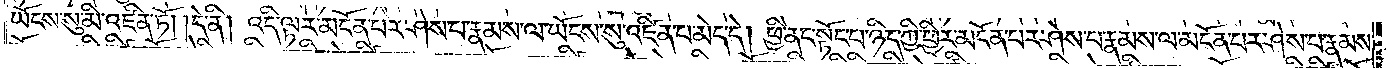ཡོངས་སུ་མི་འཛིན་ཏོ། །དེ་ནི། འདི་ལྟར་མངོན་པར་ཤེས་པ་རྣམས་ལ་ཡོངས་སུ་འཛིན་པ་མེད་དེ། ཕྱི་ནང་སྟོང་པ་ཉིད་ཀྱི་ཕྱིར་མངོན་པར་ཤེས་པ་རྣམས་ལ་མངོན་པར་ཤེས་པ་རྣམས་
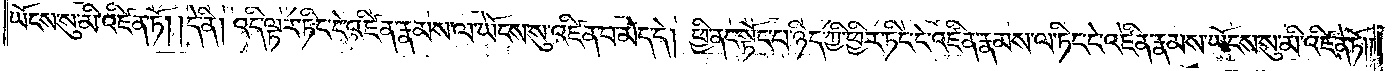ཡོངས་སུ་མི་འཛིན་ཏོ། །དེ་ནི། འདི་ལྟར་ཏིང་ངེ་འཛིན་རྣམས་ལ་ཡོངས་སུ་འཛིན་པ་མེད་དེ། ཕྱི་ནང་སྟོང་པ་ཉིད་ཀྱི་ཕྱིར་ཏིང་ངེ་འཛིན་རྣམས་ལ་ཏིང་ངེ་འཛིན་རྣམས་ཡོངས་སུ་མི་འཛིན་ཏོ༎
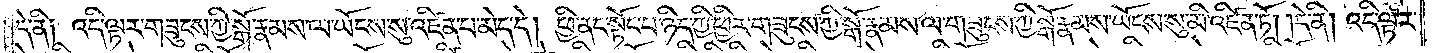དེ་ནི༑ འདི་ལྟར་གཟུངས་ཀྱི་སྒོ་རྣམས་ལ་ཡོངས་སུ་འཛིན་པ་མེད་དེ། ཕྱི་ནང་སྟོང་པ་ཉིད་ཀྱི་ཕྱིར་གཟུངས་ཀྱི་སྒོ་རྣམས་ལ་གཟུངས་ཀྱི་སྒོ་རྣམས་ཡོངས་སུ་མི་འཛིན་ཏོ། །དེ་ནི། འདི་ལྟར་
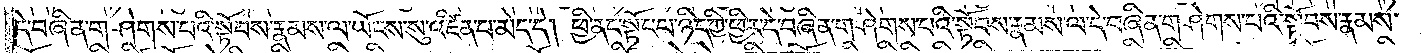དེ་བཞིན་གཤེགས་པའི་སྟོབས་རྣམས་ལ་ཡོངས་སུ་འཛིན་པ་མེད་དེ། ཕྱི་ནང་སྟོང་པ་ཉིད་ཀྱི་ཕྱིར་དེ་བཞིན་གཤེགས་པའི་སྟོབས་རྣམས་ལ་དེ་བཞིན་གཤེགས་པའི་སྟོབས་རྣམས་
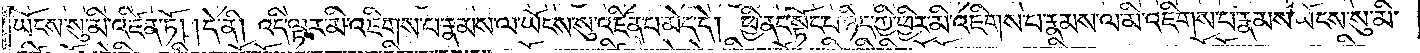ཡོངས་སུ་མི་འཛིན་ཏོ། །དེ་ནི། འདི་ལྟར་མི་འཇིགས་པ་རྣམས་ལ་ཡོངས་སུ་འཛིན་པ་མེད་དེ། ཕྱི་ནང་སྟོང་པ་ཉིད་ཀྱི་ཕྱིར་མི་འཇིགས་པ་རྣམས་ལ་མི་འཇིགས་པ་རྣམས་ཡོངས་སུ་མི་
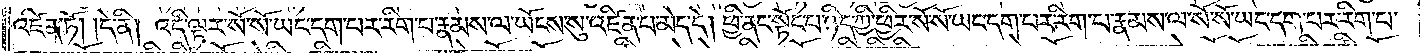འཛིན་ཏོ། །དེ་ནི། འདི་ལྟར་སོ་སོ་ཡང་དག་པར་རིག་པ་རྣམས་ལ་ཡོངས་སུ་འཛིན་པ་མེད་དེ། ཕྱི་ནང་སྟོང་པ་ཉིད་ཀྱི་ཕྱིར་སོ་སོ་ཡང་དག་པར་རིག་པ་རྣམས་ལ་སོ་སོ་ཡང་དག་པར་རིག་པ་
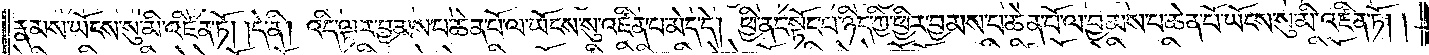རྣམས་ཡོངས་སུ་མི་འཛིན་ཏོ། །དེ་ནི། འདི་ལྟར་བྱམས་པ་ཆེན་པོ་ལ་ཡོངས་སུ་འཛིན་པ་མེད་དེ། ཕྱི་ནང་སྟོང་པ་ཉིད་ཀྱི་ཕྱིར་བྱམས་པ་ཆེན་པོ་ལ་བྱམས་པ་ཆེན་པོ་ཡོངས་སུ་མི་འཛིན་ཏོ༎
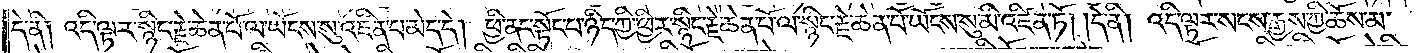དེ་ནི༑ འདི་ལྟར་སྙིང་རྗེ་ཆེན་པོ་ལ་ཡོངས་སུ་འཛིན་པ་མེད་དེ། ཕྱི་ནང་སྟོང་པ་ཉིད་ཀྱི་ཕྱིར་སྙིང་རྗེ་ཆེན་པོ་ལ་སྙིང་རྗེ་ཆེན་པོ་ཡོངས་སུ་མི་འཛིན་ཏོ། །དེ་ནི། འདི་ལྟར་སངས་རྒྱས་ཀྱི་ཆོས་མ་
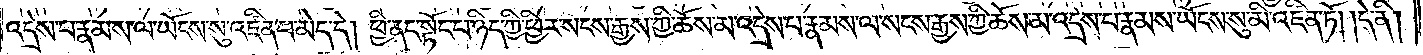འདྲེས་པ་རྣམས་ལ་ཡོངས་སུ་འཛིན་པ་མེད་དེ། ཕྱི་ནང་སྟོང་པ་ཉིད་ཀྱི་ཕྱིར་སངས་རྒྱས་ཀྱི་ཆོས་མ་འདྲེས་པ་རྣམས་ལ་སངས་རྒྱས་ཀྱི་ཆོས་མ་འདྲེས་པ་རྣམས་ཡོངས་སུ་མི་འཛིན་ཏོ། །དེ་ནི།
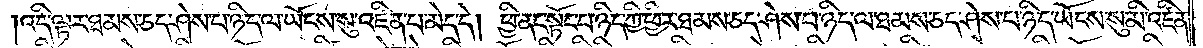འདི་ལྟར་ཐམས་ཅད་ཤེས་པ་ཉིད་ལ་ཡོངས་སུ་འཛིན་པ་མེད་དེ། ཕྱི་ནང་སྟོང་པ་ཉིད་ཀྱི་ཕྱིར་ཐམས་ཅད་ཤེས་པ་ཉིད་ལ་ཐམས་ཅད་ཤེས་པ་ཉིད་ཡོངས་སུ་མི་འཛིན་
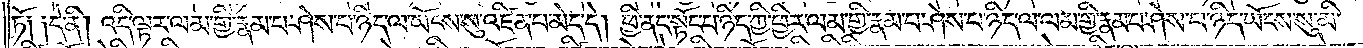ཏོ༑ ༑དེ་ནི། འདི་ལྟར་ལམ་གྱི་རྣམ་པ་ཤེས་པ་ཉིད་ལ་ཡོངས་སུ་འཛིན་པ་མེད་དེ། ཕྱི་ནང་སྟོང་པ་ཉིད་ཀྱི་ཕྱིར་ལམ་གྱི་རྣམ་པ་ཤེས་པ་ཉིད་ལ་ལམ་གྱི་རྣམ་པ་ཤེས་པ་ཉིད་ཡོངས་སུ་མི་
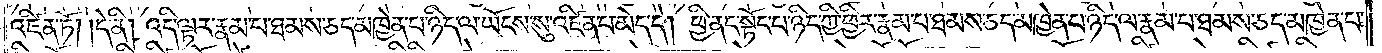འཛིན་ཏོ། །དེ་ནི། འདི་ལྟར་རྣམ་པ་ཐམས་ཅད་མཁྱེན་པ་ཉིད་ལ་ཡོངས་སུ་འཛིན་པ་མེད་དེ། ཕྱི་ནང་སྟོང་པ་ཉིད་ཀྱི་ཕྱིར་རྣམ་པ་ཐམས་ཅད་མཁྱེན་པ་ཉིད་ལ་རྣམ་པ་ཐམས་ཅད་མཁྱེན་པ་
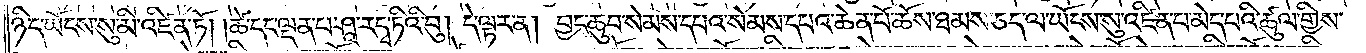ཉིད་ཡོངས་སུ་མི་འཛིན་ཏོ། །ཚེ་དང་ལྡན་པ་ཤཱ་ར་དྭ་ཏིའི་བུ། དེ་ལྟར་ན། བྱང་ཆུབ་སེམས་དཔའ་སེམས་དཔའ་ཆེན་པོ་ཆོས་ཐམས་ཅད་ལ་ཡོངས་སུ་འཛིན་པ་མེད་པའི་ཚུལ་གྱིས་
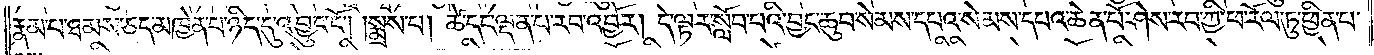རྣམ་པ་ཐམས་ཅད་མཁྱེན་པ་ཉིད་དུ་འབྱུང་ངོ༌། །སྨྲས་པ། ཚེ་དང་ལྡན་པ་རབ་འབྱོར། དེ་ལྟར་སློབ་པའི་བྱང་ཆུབ་སེམས་དཔའ་སེམས་དཔའ་ཆེན་པོ་ཤེས་རབ་ཀྱི་ཕ་རོལ་ཏུ་ཕྱིན་པ་
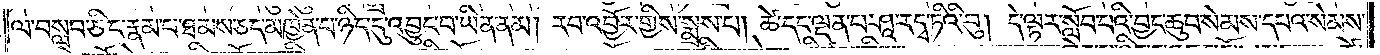ལ་བསླབ་ཅིང་རྣམ་པ་ཐམས་ཅད་མཁྱེན་པ་ཉིད་དུ་འབྱུང་བ་ཡིན་ནམ། རབ་འབྱོར་གྱིས་སྨྲས་པ། ཚེ་དང་ལྡན་པ་ཤཱ་ར་དྭ་ཏིའི་བུ། དེ་ལྟར་སློབ་པའི་བྱང་ཆུབ་སེམས་དཔའ་སེམས་
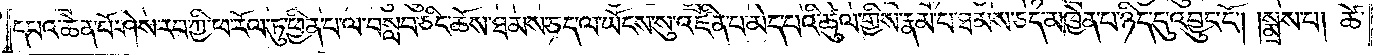དཔའ་ཆེན་པོ་ཤེས་རབ་ཀྱི་ཕ་རོལ་ཏུ་ཕྱིན་པ་ལ་བསླབ་ཅིང་ཆོས་ཐམས་ཅད་ལ་ཡོངས་སུ་འཛིན་པ་མེད་པའི་ཚུལ་གྱིས་རྣམ་པ་ཐམས་ཅད་མཁྱེན་པ་ཉིད་དུ་འབྱུང་ངོ༌། །སྨྲས་པ། ཚེ་
